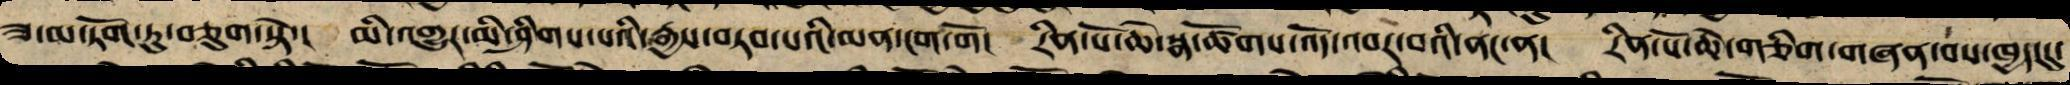ཟ་མ་ཏོག་ཏུ་བཅུག་སྟེ་། མི་འགྱུར་མི་ཤིགས་པའི་རྒྱས་བཏབ་པའི་མན་ངག་གོ། རིན་པོ་ཆེ་སྣ་ཚོགས་འོད་འབར་བའི་ནང་ན། རིན་པོ་ཆེ་གཅིག་གཞན་བས་ཁྱད་དུ་
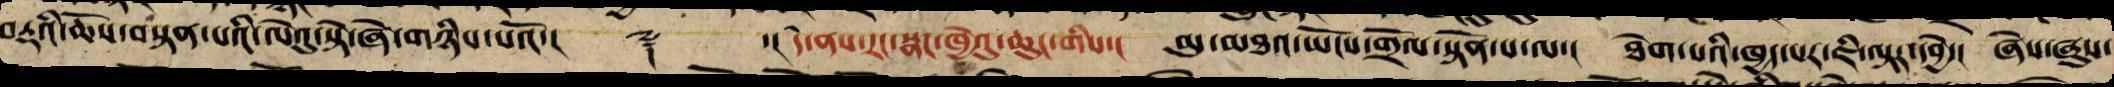བརྡའི་ཆོས་བསྟན་པའི་ལེའུ་སྟེ་ཞེ་གཉིས་པའོ་།། ༈ ་། དེ་ནས་རང་སྣང་ཁྱེའུ་ཆུང་གིས་། མུ་མཐའ་ཡོངས་གྲོལ་སྟོན་པ་ལ་། ཐེག་པའི་ཁྱད་པར་ཇི་ལྟར་དབྱེ་། ཞེས་ཞུས་
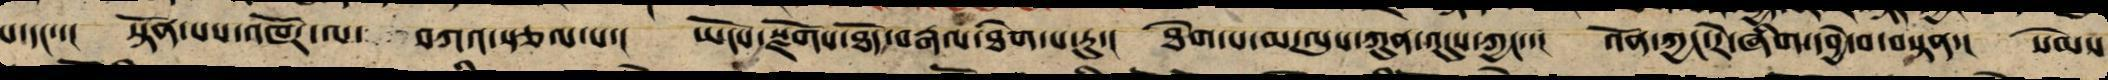པ་དང་་། སྟོན་པས་འཁོར་ལ་བཀའ་སྩལ་པ་། ཡོངས་སྫོགས་ཐོད་རྒལ་ཐེག་པ་རུ་། ཐེག་པ་མ་ལུས་ཀུན་འདུས་ཀྱང་་། འོན་ཀྱང་རེ་ཞིག་དབྱེ་བ་བསྟན་། སེམས
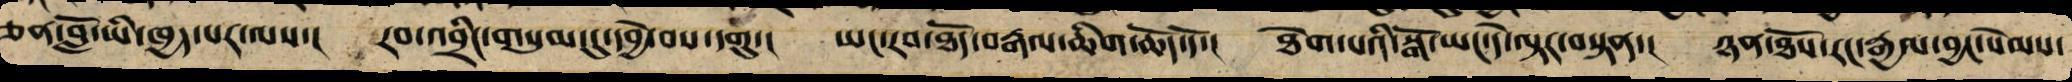ཅན་བློ་ཡི་ཁྱད་པར་ལས་། རབ་འབྲིང་གསུམ་དུ་ཕྱེ་བས་དགུ་། ཡང་རབ་ཐོད་བརྒལ་ཆིག་ཆོད་དོ་། ཐེག་པའི་སྒོ་ཡང་དེ་ལྟར་བསྟན་། ཉན་ཐོས་རང་རྒྱལ་བྱང་སེམས་
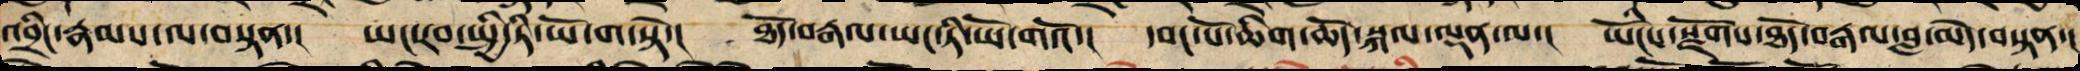འབྲིང་རྣམས་ལ་བསྟན་། ཡང་རབ་སྤྱི་ཏི་ཡོ་ག་སྟེ་། ཐོད་བརྒལ་ཡང་ཏི་ཡོ་གའོ་། དབང་པོ་ཆིག་ཆོད་སྐལ་ལྡན་ལ་། ཡོངས་སྫོགས་ཐོད་བརྒལ་བླ་མེད་བསྟན་།
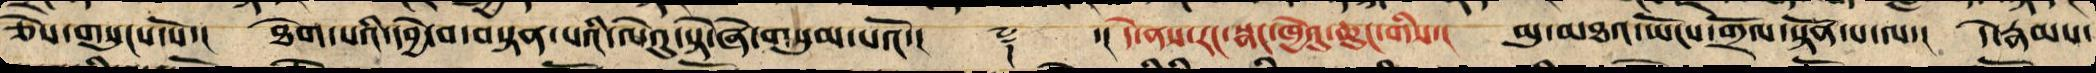ཅེས་གསུངས་སོ་། ཐེག་པའི་དབྱེ་བ་བསྟན་པའི་ལེའུ་སྟེ་ཞེ་གསུམ་པའོ་།། ༈ ་།། དེ་ནས་རང་སྣང་ཁྱེའུ་ཆུང་གིས་། མུ་མཐའ་ཡོངས་གྲོལ་སྟོན་པ་ལ་། དེ་རྣམས་
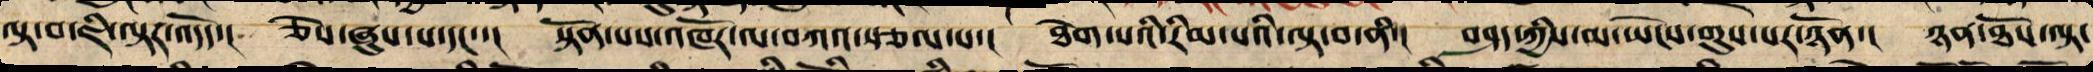ལྟ་བ་ཇི་ལྟར་འདོད་། ཅེས་ཞུས་པ་དང་་། སྟོན་པས་འཁོར་ལ་བཀའ་སྩལ་པ་། ཐེག་པའི་རིམ་པའི་ལྟ་བ་ནི་། བཤད་ཀྱིས་མ་ཡེངས་གུས་པར་ཉོན་། ཉན་ཐོས་ལྟ་
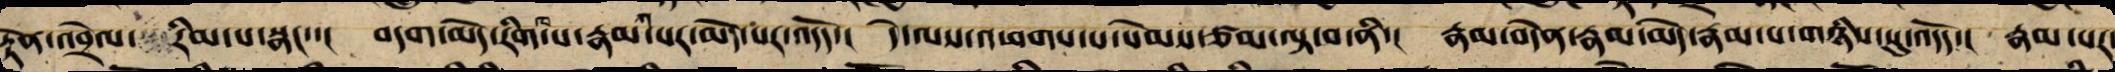རྟེན་འབྲེལ་རིམ་པ་སྣང་་། བདག་མེད་རྣམ་པར་རིག་པ་མེད་པར་འདོད་། དེ་ལས་འཕགས་པ་སེམས་ཙམ་ལྟ་བ་ནི་། རྣམ་བདེན་རྣམ་མེད་རྣམ་པ་གཉིས་སུ་འདོད་། རྣམ་པར་
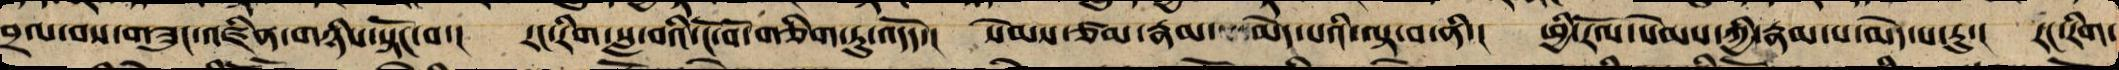བྲལ་བས་གཟུང་འཛིན་གཉིས་སྟོང་པ་། རང་རིག་གསལ་བའི་ངོ་བོ་གཅིག་ཏུ་འདོད་། སེམས་ཙམ་རྣམ་མེད་པའི་ལྟ་བ་ནི་། ཕྱི་རོལ་སེམས་ཀྱི་རྣམ་པ་མེད་པ་རུ་། རང་རིག་
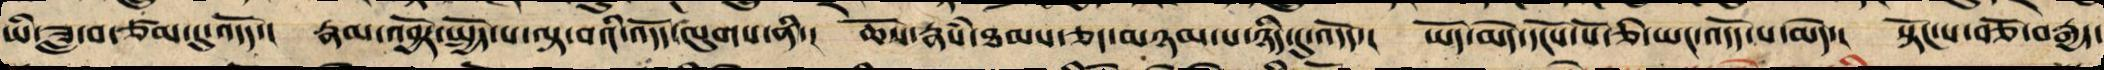ཡི་ཟླ་བ་ཙམ་དུ་འདོད་། རྣལ་འབྱོར་སྤྱོད་པ་ལྟ་བའི་འདོད་ལུགས་ནི་། ཆོས་རྣཾས་ཐམས་ཅད་མཉམ་པ་ཉིད་དུ་འདོད་། ཡོད་མེད་དངོས་པོ་ཅི་ཡང་འདོད་པ་མེད་། སྟོང་པ་བཅོ་བརྒྱད་
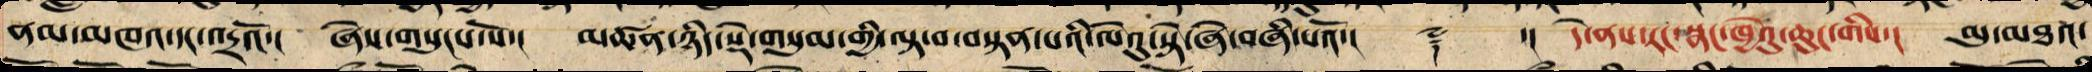ནམ་མཁའ་དང་འདྲའོ་། ཞེས་གསུངས་སོ་། མཚན་ཉིད་སྡེ་གསུམ་གྱི་ལྟ་བ་བསྟན་པའི་ལེའུ་སྟེ་ཞེ་བཞི་པའོ་།། ༈ ་།། དེ་ནས་རང་སྣང་ཁྱེའུ་ཆུང་གིས་། མུ་མཐའ་
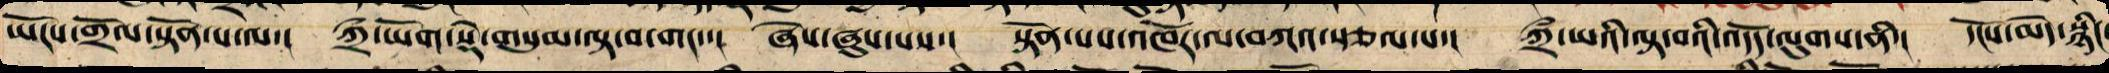ཡོངས་གྲོལ་སྟོན་པ་ལ་། ཀྲྀ་ཡོག་སྡེ་གསུམ་བལྟ་བ་གང་་། ཞེས་ཞུས་པས་། སྟོན་པས་འཁོར་ལ་བཀའ་སྩལ་པ་། ཀྲྀ་ཡའི་བལྟ་བའི་འདོད་ལུགས་ནི་། དངོས་མེད་སྙིང་
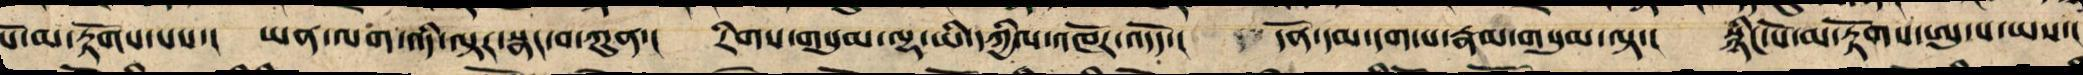པོ་མ་རྟོགས་པས་། ཡན་ལག་འདི་ལྟར་སྣང་བ་ཀུན་། རིགས་གསུམ་ལྷ་ཡི་དཀྱིལ་འཁོར་འདོད་། དོན་དམ་དག་པ་རྣམ་གསུམ་ལྟ་། སྙིང་པོ་མ་རྟོགས་ཨུ་པ་ཡས་།།
